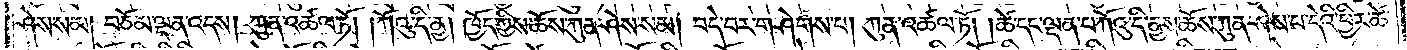ཤེས་སམ། བཅོམ་ལྡན་འདས། ཀུན་འཚལ་ཏོ། །ཀོའུ་དི་ནྱ། ཁྱོད་ཀྱིས་ཆོས་ཀུན་ཤེས་སམ། བདེ་བར་གཤེགས་པ། ཀུན་འཚལ་ཏོ། །ཚེ་དང་ལྡན་པ་ཀོའུ་དི་ནྱས་ཆོས་ཀུན་ཤེས་པ་དེའི་ཕྱིར་ཚེ་
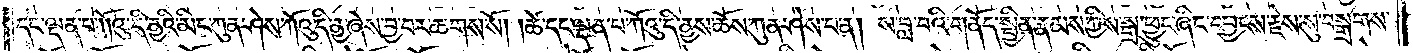དང་ལྡན་པ་ཀོའུ་དི་ནྱའི་མིང་ཀུན་ཤེས་ཀོའུ་དི་ནྱ་ཞེས་བྱ་བར་ཆགས་སོ། །ཚེ་དང་ལྡན་པ་ཀོའུ་དི་ནྱས་ཆོས་ཀུན་ཤེས་པ་ན། ས་བླ་བའི་གནོད་སྦྱིན་རྣམས་ཀྱིས་སྒྲ་ཕྱུང་ཞིང་དབྱངས་རྗེས་སུ་བསྒྲགས་
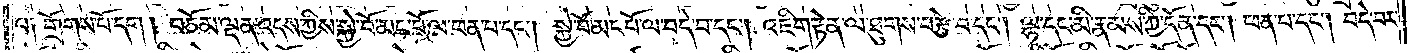པ། གྲོགས་པོ་དག །བཅོམ་ལྡན་འདས་ཀྱིས་སྐྱེ་བོ་མང་པོ་ལ་ཕན་པ་དང༌། སྐྱེ་བོ་མང་པོ་ལ་བདེ་བ་དང༌། འཇིག་རྟེན་ལ་ཐུགས་བརྩེ་བ་དང༌། ལྷ་དང་མི་རྣམས་ཀྱི་དོན་དང༌། ཕན་པ་དང༌། བདེ་བར་
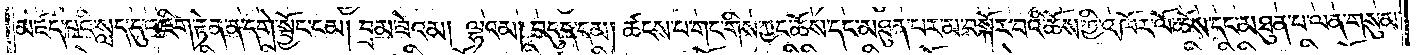མཛད་པའི་སླད་དུ་འཇིག་རྟེན་ན་དགེ་སྦྱོང་ངམ། བྲམ་ཟེའམ། ལྷའམ། བདུད་དམ། ཚངས་པ་གང་གིས་ཀྱང་ཆོས་དང་མཐུན་པར་མ་བསྐོར་བའི་ཆོས་ཀྱི་འཁོར་ལོ་ཆོས་དང་མཐུན་པ་ལན་གསུམ་
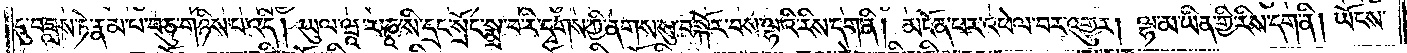དུ་བཟླས་ཏེ་རྣམ་པ་བཅུ་གཉིས་པ་འདི། ཡུལ་ཝཱ་ར་ཎཱ་སི་དྲང་སྲོང་སྨྲ་བ་རི་དྭགས་ཀྱི་ནགས་སུ་བསྐོར་བས་ལྷའི་རིས་དག་ནི། མངོན་པར་འཕེལ་བར་འགྱུར། ལྷ་མ་ཡིན་གྱི་རིས་དག་ནི། ཡོངས་
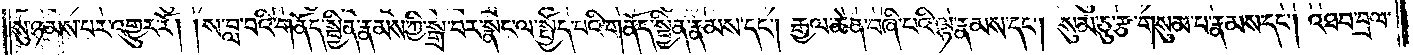སུ་ཉམས་པར་འགྱུར་རོ། །ས་བླ་བའི་གནོད་སྦྱིན་རྣམས་ཀྱི་སྒྲ་བར་སྣང་ལ་སྤྱོད་པའི་གནོད་སྦྱིན་རྣམས་དང༌། རྒྱལ་ཆེན་བཞི་པའི་ལྷ་རྣམས་དང༌། སུམ་ཅུ་རྩ་གསུམ་པ་རྣམས་དང༌། འཐབ་བྲལ་
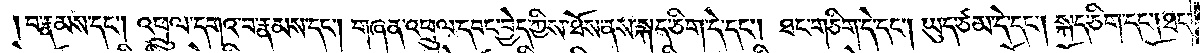བ་རྣམས་དང༌། འཕྲུལ་དགའ་བ་རྣམས་དང༌། གཞན་འཕྲུལ་དབང་བྱེད་ཀྱིས་ཐོས་ནས་སྐད་ཅིག་དེ་དང༌། ཐང་གཅིག་དེ་དང༌། ཡུད་ཙམ་དེ་དང༌། སྐད་ཅིག་དང༌། ཐང་
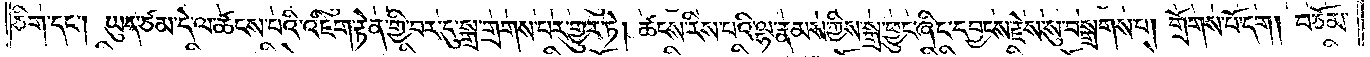ཅིག་དང༌། ཡུད་ཙམ་དེ་ལ་ཚངས་པའི་འཇིག་རྟེན་གྱི་བར་དུ་སྒྲ་གྲགས་པར་གྱུར་ཏེ། ཚངས་རིས་པའི་ལྷ་རྣམས་ཀྱིས་སྒྲ་ཕྱུང་ཞིང་དབྱངས་རྗེས་སུ་བསྒྲགས་པ། གྲོགས་པོ་དག། བཅོམ་
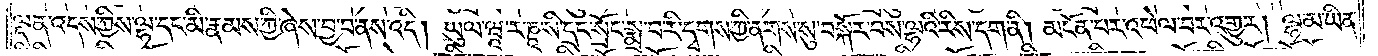ལྡན་འདས་ཀྱིས་ལྷ་དང་མི་རྣམས་ཀྱི་ཞེས་བྱ་བ་ནས་འདི། ཡུལ་ཝཱ་ར་ཎཱ་སི་དྲང་སྲོང་སྨྲ་བ་རི་དྭགས་ཀྱི་ནགས་སུ་བསྐོར་བས་ལྷའི་རིས་དག་ནི། མངོན་པར་འཕེལ་བར་འགྱུར། ལྷ་མ་ཡིན་
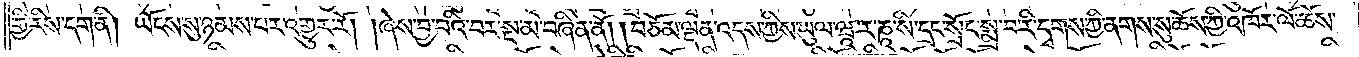གྱི་རིས་དག་ནི། ཡོངས་སུ་ཉམས་པར་འགྱུར་རོ། །ཞེས་བྱ་བའི་བར་སྔ་མ་བཞིན་ནོ། །བཅོམ་ལྡན་འདས་ཀྱིས་ཡུལ་ཝཱ་ར་ཎཱ་སི་དྲང་སྲོང་སྨྲ་བ་རི་དྭགས་ཀྱི་ནགས་སུ་ཆོས་ཀྱི་འཁོར་ལོ་ཆོས་
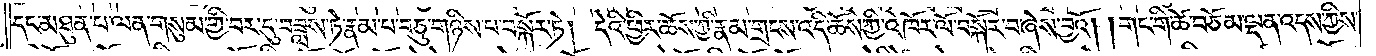དང་མཐུན་པ་ལན་གསུམ་གྱི་བར་དུ་བཟླས་ཏེ་རྣམ་པ་བཅུ་གཉིས་པ་བསྐོར་ཏེ། དེའི་ཕྱིར་ཆོས་ཀྱི་རྣམ་གྲངས་འདི་ཆོས་ཀྱི་འཁོར་ལོ་བསྐོར་བ་ཞེས་བྱའོ། །གང་གི་ཚེ་བཅོམ་ལྡན་འདས་ཀྱིས་
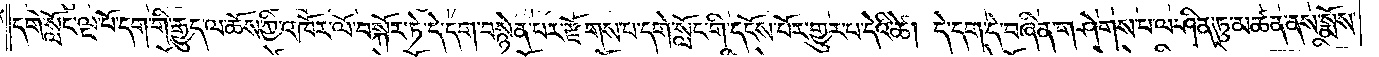དགེ་སློང་ལྔ་པོ་དག་གི་རྒྱུད་ལ་ཆོས་ཀྱི་འཁོར་ལོ་བསྐོར་ཏེ་དེ་དག་བསྙེན་པར་རྫོགས་པ་དགེ་སློང་གི་དངོས་པོར་གྱུར་པ་དེའི་ཚེ། དེ་དག་དེ་བཞིན་གཤེགས་པ་ལ་ཤིན་ཏུ་མཚན་ནས་སྨོས་
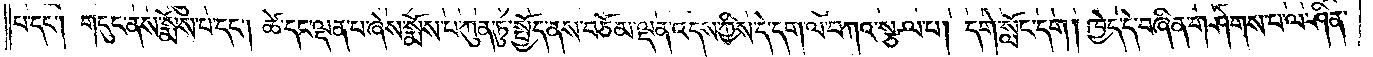པ་དང༌། གདུང་ནས་སྨོས་པ་དང༌། ཚེ་དང་ལྡན་པ་ཞེས་སྨོས་པ་ཀུན་ཏུ་སྤྱོད་ནས་བཅོམ་ལྡན་འདས་ཀྱིས་དེ་དག་ལ་བཀའ་སྩལ་པ། དགེ་སློང་དག། ཁྱེད་དེ་བཞིན་གཤེགས་པ་ལ་ཤིན་
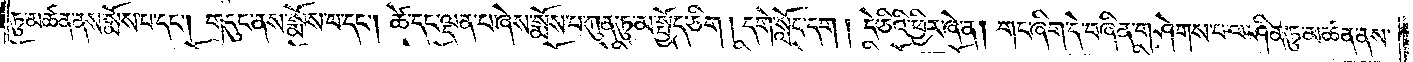ཏུ་མཚན་ནས་སྨོས་པ་དང༌། གདུང་ནས་སྨོས་པ་དང༌། ཚེ་དང་ལྡན་པ་ཞེས་སྨོས་པ་ཀུན་ཏུ་མ་སྤྱོད་ཅིག །དགེ་སློང་དག། དེ་ཅིའི་ཕྱིར་ཞེ་ན། གང་ཞིག་དེ་བཞིན་གཤེགས་པ་ལ་ཤིན་ཏུ་མཚན་ནས་
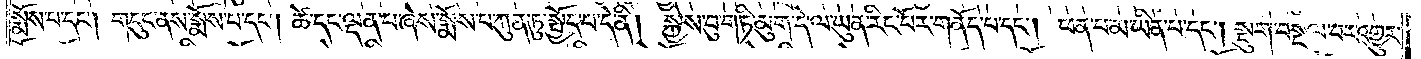སྨོས་པ་དང༌། གདུང་ནས་སྨོས་པ་དང༌། ཚེ་དང་ལྡན་པ་ཞེས་སྨོས་པ་ཀུན་ཏུ་སྤྱོད་པ་དེ་ནི། སྐྱེས་བུ་གཏི་མུག་དེ་ལ་ཡུན་རིང་པོར་གནོད་པ་དང༌། ཕན་པ་མ་ཡིན་པ་དང༌། སྡུག་བསྔལ་བར་འགྱུར་
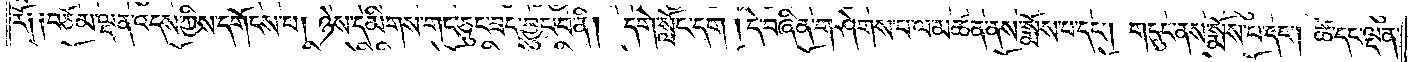རོ། །བཅོམ་ལྡན་འདས་ཀྱིས་དགོངས་པ། ཉེས་དམིགས་གང་ཅུང་ཟད་བྱུང་བ་ནི། དགེ་སློང་དག །དེ་བཞིན་གཤེགས་པ་ལ་མཚན་ནས་སྨོས་པ་དང༌། གདུང་ནས་སྨོས་པ་དང༌། ཚེ་དང་ལྡན་
